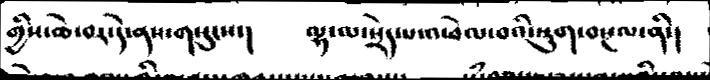གྱིསས་ཆེ་བར་དེ་ནས་གསུངས་།     ལྷ་ལ་སྲེད་པ་འཕེལ་བའི་སྡུག་བསྔལ་ནི་།
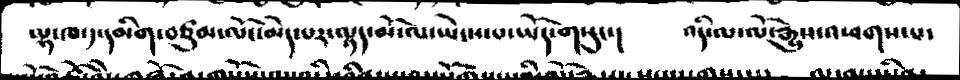ལྷ་ཁ་ད་དམིག་བཙུམ་ལོང་མེད་པར་ལྟད་མོ་ལ་ཡེངས་པ་ཡོད་གསུང།     འདི་ལ་ལོ་རྒྱུས་འཕགས་པ་
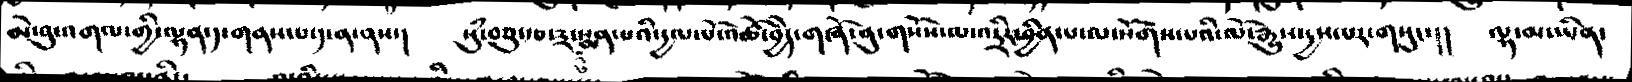མེ་བུ་འགལ་གྱི་ལྷན་ད་གནས་པ་ད་ན་ནས་།    སུཾ་བཅུ་རྩ་༣་དུ་སྨན་པའི་དྱལ་པོ་འཚེ་བྱེད་གཞོན་ནུ་གསོས་མ་འཏྲིར་ཕྱིན་པ་ལ་སོག་པའི་ལོ་རྒྱུས་དྱས་པར་གསུང་།།   ལྷ་མ་ཡིན་
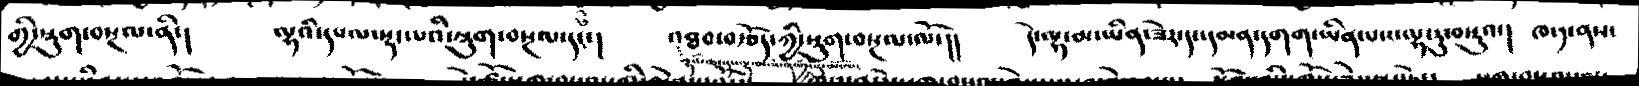གྱི་སྡུག་བསྔལ་ནི་།    ལྷའི་དཔལ་སྡང་པའི་སྡུག་བསྔལ་དང་།     འཐབ་བརྩོད་ཀྱི་སྡུག་བསྔལ་ལོ་།།      དེ་ལྟ་མ་ཡིན་ཟེར་དང་དམན་དགག་ཡིན་པས་ལྷ་རུ་བསྡུའ་།   ཁ་༡་ནས
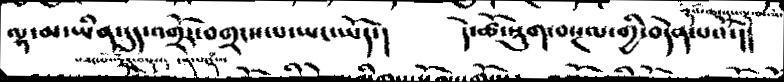ལྷ་མ་ཡིན་དུད་འགྲོར་བགྲངས་པ་ཡང་ཡོད་།      དེ་ཚེ་སྡུག་བསྔལ་གྱི་བདེན་པའོ་།།
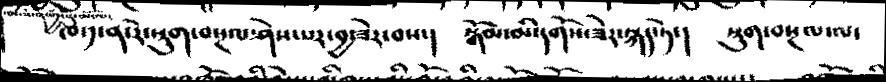ཁ་༡་ན་རེ་སྡུག་བསྔལ་ཤེས་པར་བྱ་ཟེར་བས་།     སྒོམ་མི་དགོས་ཟེར་སྐད་ཏེ་།    སྡུག་བསྔལ་ལ་
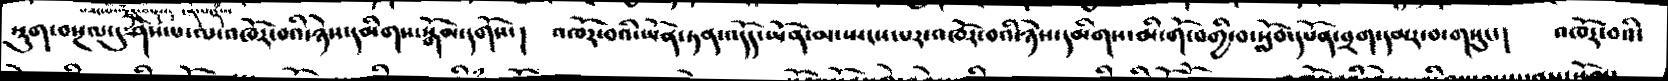སྡུག་བསྔལ་དུ་ཤེས་པ་ལ་འཁོར་བའི་ཉེས་དམིགས་སྒོམ་དགོས་།   འཁོར་བའི་ཡོན་ཏན་འདོད་ཡོན་མ་སྤངས་པར་འཁོར་བའི་ཉེས་དམིགས་མི་གོ་བགྱི་བ་སློབ་དཔོན་བྲག་དམར་བ་གསུང་།   འཁོར་བའི་
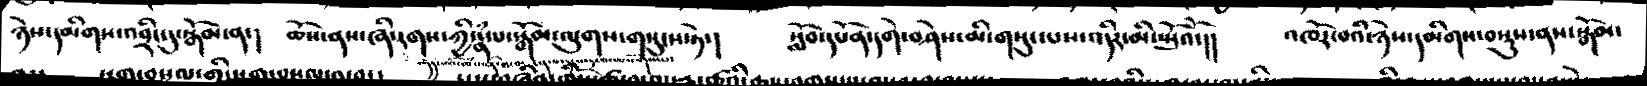ཉེས་དམིགས་འབྲིང་དུ་སྒོམ་ན་།   ཆོས་ནས་ཞི་རགས་ཀྱི་རྣཾ་པ་སྒོམ་ལུགས་གསུངས་ཏེ་།     སློབ་དཔོན་དགེ་བཤེས་མི་གསུངས་པས་འདིར་མི་སྤོའོ་།      འཁོར་བའི་ཉེས་དམིགས་བསྡུས་ནས་སྒོམ་
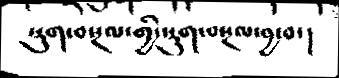སྡུག་བསྔལ་གྱི་སྡུག་བསྔལ་བྱ་བ་།
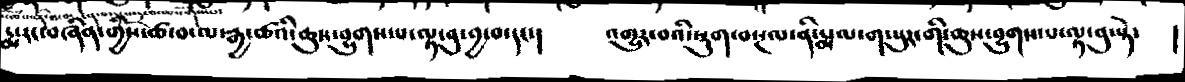རྨ་རང་གྱིས་ཚ་བ་ལ་རྒྱ་ཚའི་ཆུས་བྱུགས་པ་ལྟ་བུ་བྱ་བ་དང་།   འགྱུར་བའི་སྡུག་བསྔལ་ནི་རྨ་ལ་ག་པུར་གི་ཆུས་བྱུགས་པ་ལྟ་བུ་སྟེ་  །
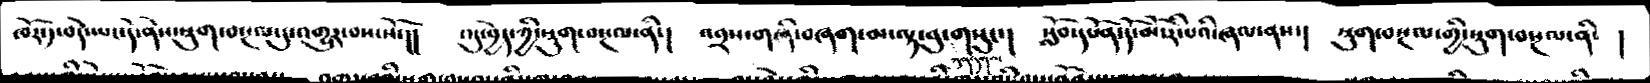ཁོར་༡་བདེ་ཡང་དེ་ནེས་སྡུག་བསྔལ་དུ་འགྱུར་བས་སོ་།།   འདུ་བྱེད་ཀྱི་སྡུག་བསྔལ་ནི་།   འབྲས་གཞི་བཞག་མ་ལྟ་བུ་ཀུན་དགའ་གསུང་།    སློབ་དཔོན་དོ་མོ་རི་པའི་ཞལ་ནས་།    སྡུག་བསྔལ་གྱི་སྡུག་བསྔལ་ནི་   །
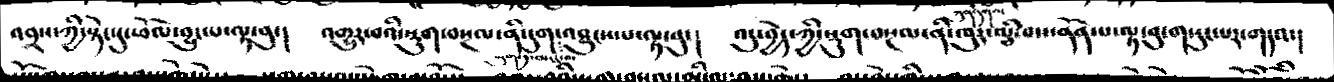འབྲས་ཀྱི་སྟེང་དུ་ཕོལ་བྱུང་པ་ལྟ་བུ་། འགྱུར་བའི་སྡུག་བསྔལ་ནི་འཐུངས་པ་ལྟ་བུ་།    འདུ་བྱེད་ཀྱི་སྡུག་བསྔལ་ནི་ཁུར་ལྕི་བས་ནོན་པ་ལྟ་བུ་གསུངས་པར་གདའ་།
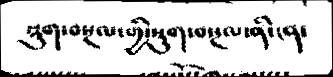སྡུག་བསྔལ་གྱི་སྡུག་བསྔལ་ནི་ངན་
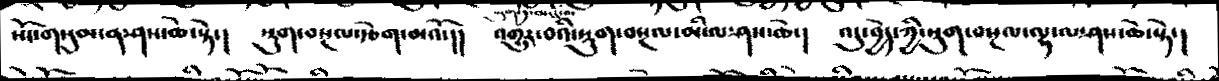སོང་གསུམ་ན་ཤས་ཆེ་སྟེ་།   སྡུག་བསྔལ་རྩེག་མའོ་།།    འགྱུར་བའི་སྡུག་བསྔལ་མི་ལ་ཤས་ཆེ་།  འདུ་བྱེད་ཀྱི་སྡུག་བསྔལ་ལྷ་ལ་ཤས་ཆེ་སྟེ་།
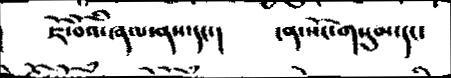ཇོ་བོའི་ཞལ་ནས་དང་།    ངན་སོང་གསུམ་དང་
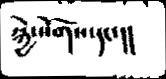སྐྱེ་སོགས་དང་།།
